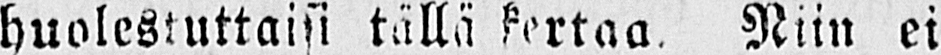huolestuttaisi tällä kertaa. Niin ei
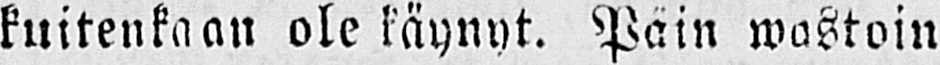kuitenkaan ole käynyt. Päin wastoin
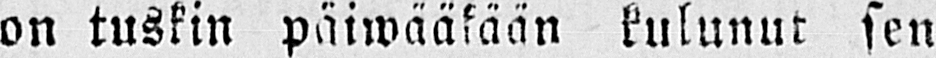on tuskin päiwääkään kulunut sen
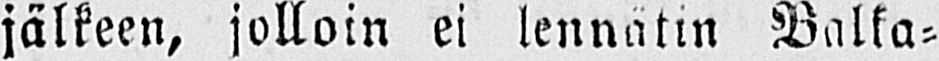jälkeen, jolloin ei lennätin Balka-
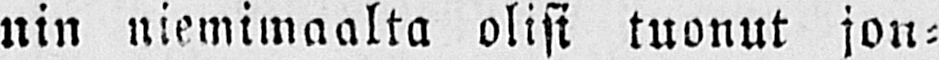nin niemimaalta olisi tuonut jon-
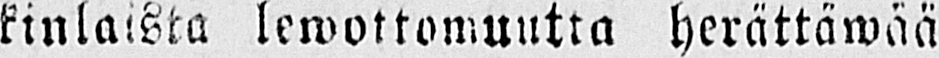kinlaista lewottomuutta herättäwää
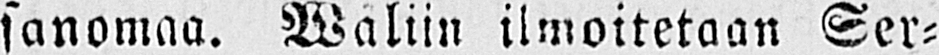sanomaa. Wäliin ilmoitetaan Ser-
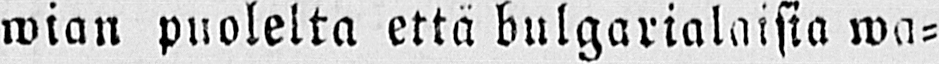wian puolelta että bulgarialaisia wa-
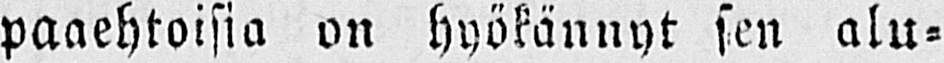paaehtoisia on hyökännyt sen alu-
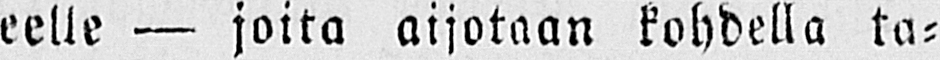eelle — joita aijotaan kohdella ta-
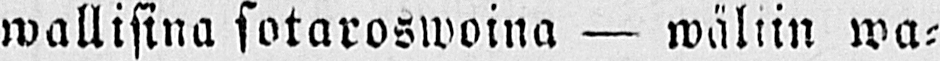wallisina sotaroswoina — wäliin wa-
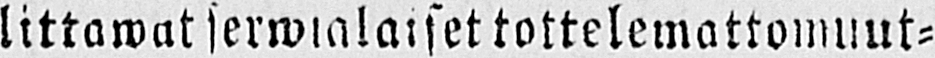littawat serwialaiset tottelemattomuut-
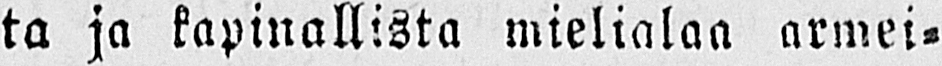ta ja kapinallista mielialaa armei-
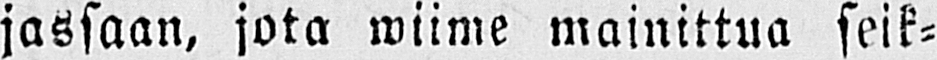jassaan, jota wiime mainittua seik-
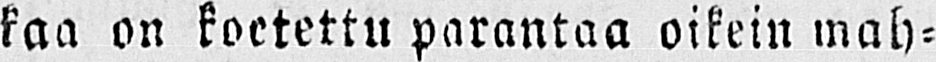kaa on koetettu parantaa oikein mah-
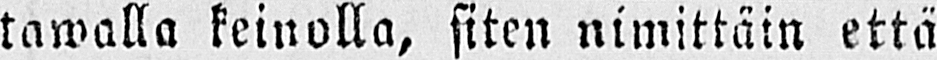tawalla keinolla, siten nimittäin että
